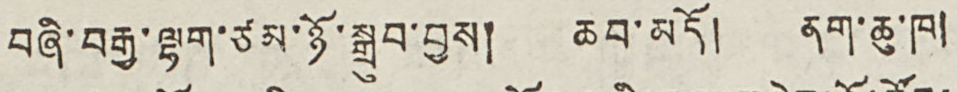བཞི་བརྒྱ་ལྷག་ཙམ་ཉོ་སྒྲུབ་བྱས། ཆབ་མདོ། ནག་ཆུ་ཁ།
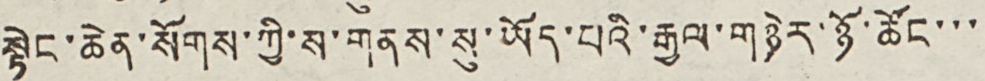སྟེང་ཆེན་སོགས་ཀྱི་ས་གནས་སུ་ཡོད་པའི་རྒྱལ་གཉེར་ཉོ་ཚོང་་་
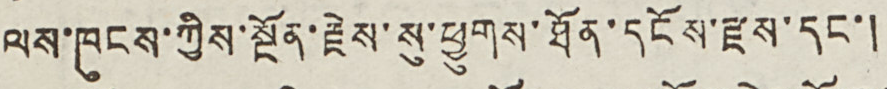ལས་ཁངས་ཀྱིས་སྔོན་རྗེས་སུ་ཕྱུགས་ཐོན་དངོས་རྫས་དང་།
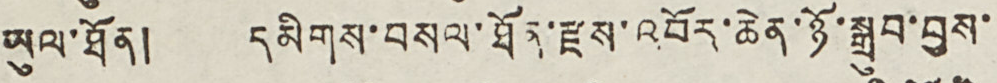ཡུལ་ཐོན། དམིགས་བསལ་ཐོན་རྫས་འབོར་ཆེན་ཉོ་སྒྲུབ་བྱས་
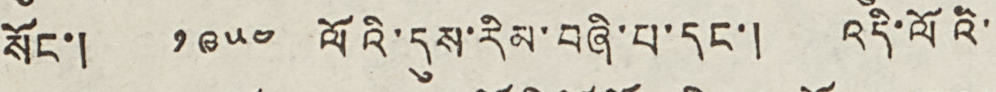སོང་། ༡༩༥༤ ལོའི་དུས་རིམ་བཞི་པ་དང་། འདི་ལོའི་
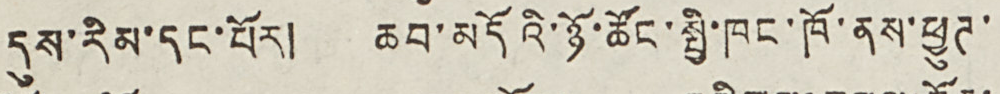དུས་རིམ་དང་པོར། ཆབ་མདོའི་ཉོ་ཚོང་སྤྱི་ཁང་ཁོ་ནས་ཕྱུཊ་
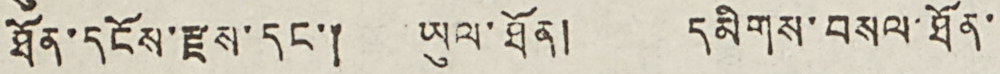ཐོན་དངོས་རྫས་དང་། ཡུལ་ཐོན། དམིགས་བསལ་ཐོན་
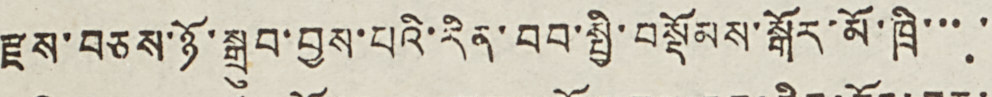རྫས་བཅས་ཉོ་སྒྲུབ་བྱས་པའི་རིན་བབ་སྤྱི་བསྡོམས་སྒོར་མོ་ཁྲི་་་་
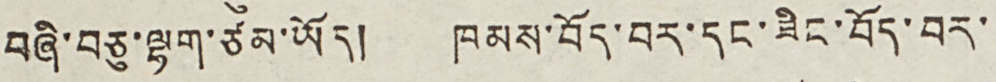བཞི་བཅུ་ལྷག་ཙམ་ཡོད། ཁམས་བོད་བར་དང་ཟིང་བོད་བར་
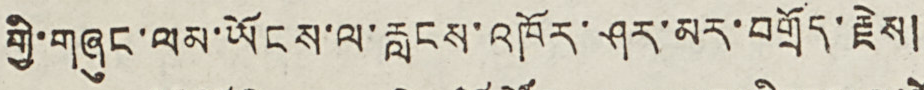གྱི་གཞུང་ལམ་ཡོངས་ལ་རླངས་འཁོར་ཤར་མར་བགྲོད་རྗེས།
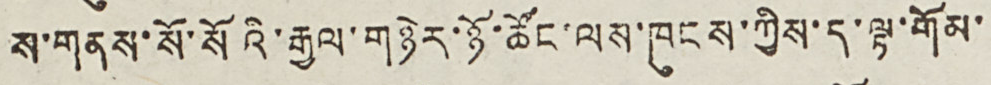ས་གནས་སོ་སོའི་རྒྱལ་གཉེར་ཉོ་ཚོང་ལས་ཁུངས་ཀྱིས་ད་ལྟ་གོམ་
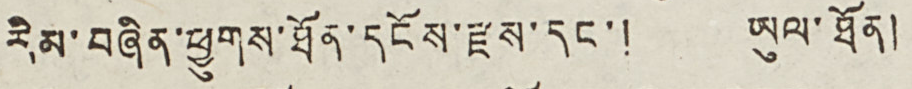རིམ་བཞིན་ཕྱུགས་ཐོན་དངོས་རྫས་དང་། ཡུལ་ཐོན།
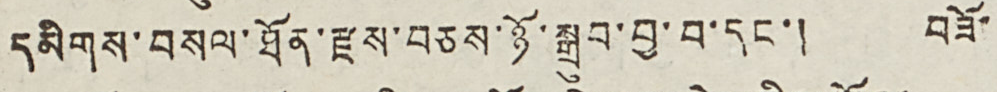དམིགས་བསལ་ཐོན་རྫས་བཅས་ཉོ་སྒྲུབ་བྱ་བ་དང་། བཟོ་
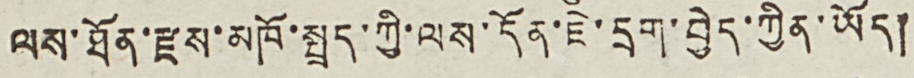ལས་ཐོན་རྫས་མཁོ་སྤྲད་ཀྱི་ལས་དོན་ཇེ་དྲག་བྱེད་ཀྱིན་ཡོད།
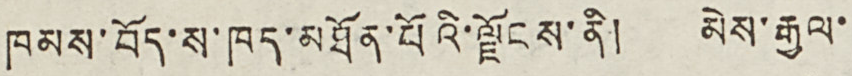ཁམས་བོད་ས་ཁད་མཐོན་པོའི་ལྗོངས་ནི། མེས་རྒྱལ་
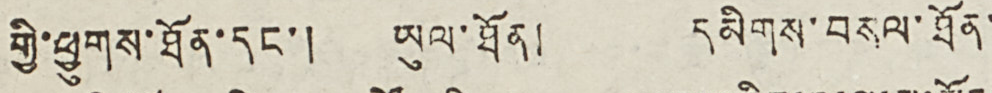གྱི་ཕྱུགས་ཐོན་དང་། ཡུལ་ཐོན། དམིགས་བསལ་ཐོན་
